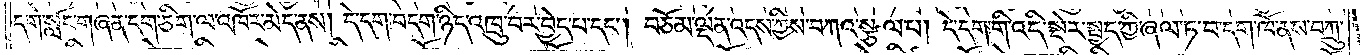དགེ་སློང་གཞན་དག་ཅིག་ལ་འཁོར་མེད་ནས། དེ་དག་བདག་ཉིད་འཁྲུ་བར་བྱེད་པ་དང༌། བཅོམ་ལྡན་འདས་ཀྱིས་བཀའ་སྩལ་པ། དེ་དག་གི་འདི་སྡེར་སྤྱད་ཀྱི་ཞལ་ཏ་བ་དག་ཁོ་ནས་བཀྲུ་
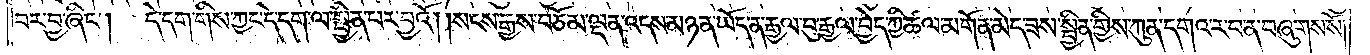བར་བྱ་ཞིང༌། དེ་དག་གིས་ཀྱང་དེ་དག་ལ་སྦྱིན་པར་བྱའོ། །སངས་རྒྱས་བཅོམ་ལྡན་འདས་མཉན་ཡོད་ན་རྒྱལ་བུ་རྒྱལ་བྱེད་ཀྱི་ཚལ་མགོན་མེད་ཟས་སྦྱིན་གྱིས་ཀུན་དགའ་ར་བ་ན་བཞུགས་སོ།
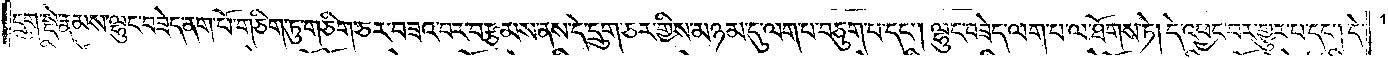དྲུག་སྡེ་རྣམས་ལྷུང་བཟེད་ནག་པོ་གཅིག་ཏུ་གཅིག་ཅར་བཟའ་བར་བརྩམས་ནས་དེ་དྲུག་ཅར་གྱིས་མཉམ་དུ་ལག་པ་བཅུག་པ་དང༌། ལྷུང་བཟེད་ལག་པ་ལ་ཐོགས་ཏེ། དེ་འཕྱང་བར་གྱུར་པ་དང༌། དེ་
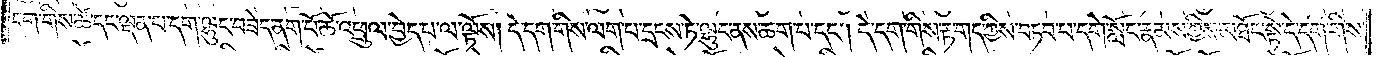དག་གིས་ཚེ་དང་ལྡན་པ་དག་ལྷུང་བཟེད་ནག་པོ་ཆོ་འཕྲུལ་བྱེད་པ་ལ་ལྟོས། དེ་དག་གིས་ལག་པ་དྲངས་ཏེ་ལྷུང་ནས་ཆག་པ་དང༌། དེ་དག་གིས་རྟ་གད་ཀྱིས་བཏབ་པ་དགེ་སློང་རྣམས་ཀྱིས་མཐོང་སྟེ་དེ་དག་གིས་
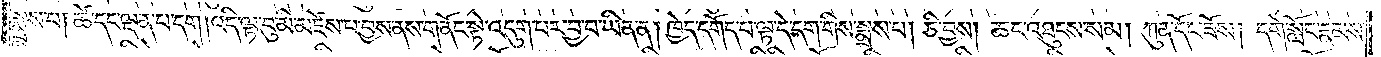སྨྲས་པ། ཚེ་དང་ལྡན་པ་དག །འདི་ལྟ་བུ་མི་མཛེས་པ་བྱས་ནས་གནོང་སྟེ་འདུག་པར་བྱ་བ་ཡིན་ན། ཁྱེད་དགོད་པ་ལྟ་དེ་དག་གིས་སྨྲས་པ། ཅི་བྱས། ཆང་འཐུངས་སམ། ཀུན་དོང་ཟོས། དགེ་སློང་རྣམས་
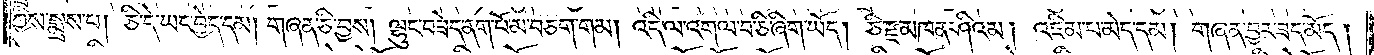ཀྱིས་སྨྲས་པ། ཅི་དེ་ཡང་བྱེད་དམ། གཞན་ཅི་བྱས། ལྷུང་བཟེད་ནག་པོ་མ་བཅག་གམ། འདི་ལ་འགལ་བ་ཅི་ཞིག་ཡོད། ཅི་རྫ་མཁན་ཤིའམ། འཇིམ་པ་མེད་དམ། གཞན་བྱར་ཟད་མོད།
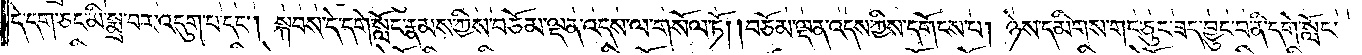དེ་དག་ཅང་མི་སྨྲ་བར་འདུག་པ་དང༌། སྐབས་དེ་དགེ་སློང་རྣམས་ཀྱིས་བཅོམ་ལྡན་འདས་ལ་གསོལ་ཏོ། །བཅོམ་ལྡན་འདས་ཀྱིས་དགོངས་པ། ཉེས་དམིགས་གང་ཅུང་ཟད་བྱུང་བ་ནི་དགེ་སློང་
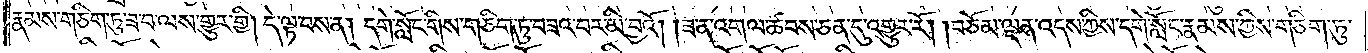རྣམས་གཅིག་ཏུ་ཟ་བ་ལས་གྱུར་གྱི། དེ་ལྟ་བས་ན། དགེ་སློང་གིས་གཅིག་ཏུ་བཟའ་བར་མི་བྱའོ། །ཟ་ན་འགལ་ཚབས་ཅན་དུ་འགྱུར་རོ། །བཅོམ་ལྡན་འདས་ཀྱིས་དགེ་སློང་རྣམས་ཀྱིས་གཅིག་ཏུ་
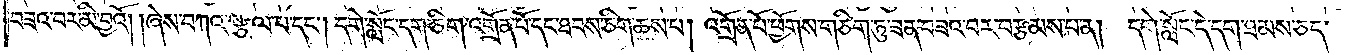བཟའ་བར་མི་བྱའོ། །ཞེས་བཀའ་སྩལ་པ་དང༌། དགེ་སློང་དག་ཅིག་འགྲོན་པོ་དང་ཐབས་ཅིག་ཆས་པ། འགྲོན་པོ་ཕྱོགས་གཅིག་ཏུ་ཟན་བཟའ་བར་བརྩམས་པ་ན། དགེ་སློང་དེ་དག་ཐམས་ཅད་
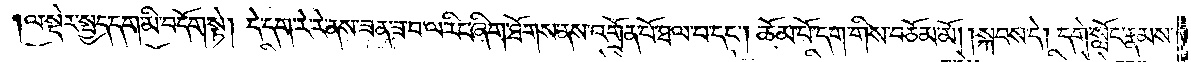ལ་སྡེར་སྤྱད་དག་མི་བདོག་སྟེ། དེ་དག་རེ་རེ་ནས་ཟན་ཟ་བ་ལ་རིང་ཞིག་ཐོགས་ནས་འགྲོན་པོ་ཐལ་བ་དང༌། ཆོམ་པོ་དག་གིས་བཅོམ་མོ། །སྐབས་དེ། དགེ་སློང་རྣམས་
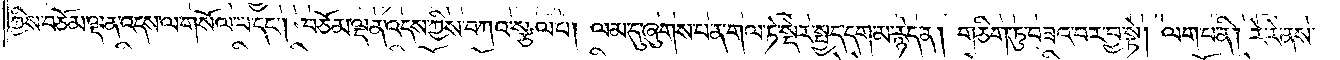ཀྱིས་བཅོམ་ལྡན་འདས་ལ་གསོལ་པ་དང༌། བཅོམ་ལྡན་འདས་ཀྱིས་བཀའ་སྩལ་པ། ལམ་དུ་ཞུགས་པ་ན་གལ་ཏེ་སྡེར་སྤྱད་དག་མ་རྙེད་ན། གཅིག་ཏུ་བཟའ་བར་བྱ་སྟེ། ལག་པ་ནི། རེ་རེ་ནས་
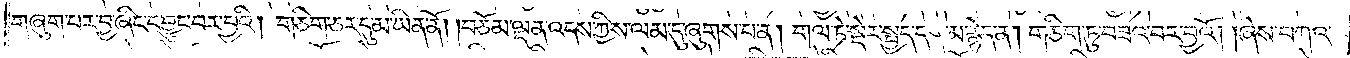གཞུག་པར་བྱ་ཞིང་དབྱུང་བར་བྱའི། གཅིག་ཅར་དུ་མ་ཡིན་ནོ། །བཅོམ་ལྡན་འདས་ཀྱིས་ལམ་དུ་ཞུགས་པ་ན། གལ་ཏེ་སྡེར་སྤྱད་དག་མ་རྙེད་ན། གཅིག་ཏུ་བཟའ་བར་བྱའོ། །ཞེས་བཀའ་
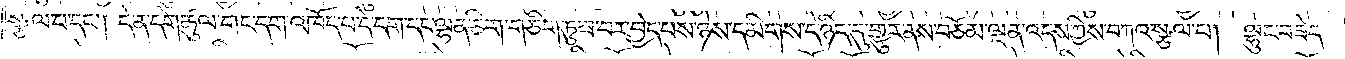སྩལ་པ་དང༌། དེ་ན་དགེ་ཚུལ་གང་དག་འཁོད་པ་དེ་དག་དང་ལྷན་ཅིག་གཅིག་ཏུ་ཟ་བར་བྱེད་པས་ཉེས་དམིགས་དེ་ཉིད་དུ་གྱུར་ནས་བཅོམ་ལྡན་འདས་ཀྱིས་བཀའ་སྩལ་པ། ལྷུང་བཟེད་
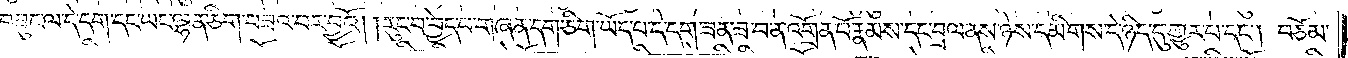བཟུང་ལ་དེ་དག་དང་ཡང་ལྷན་ཅིག་བཟའ་བར་བྱའོ། །རུང་བ་བྱེད་པ་གཞན་དག་ཅིག་ཡོད་པ་དེ་དག་ཟན་ཟ་བ་ན་འགྲོན་པོ་རྣམས་དང་བྲལ་ནས་ཉེས་དམིགས་དེ་ཉིད་དུ་གྱུར་པ་དང༌། བཅོམ་
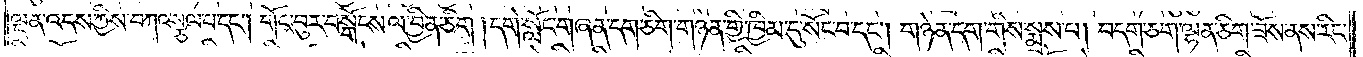ལྡན་འདས་ཀྱིས་བཀའ་སྩལ་པ་དང༌། གོང་བུར་བསྒོངས་ལ་བྱིན་ཅིག །དགེ་སློང་གཞན་དག་ཅིག་གཉེན་གྱི་ཁྱིམ་དུ་སོང་བ་དང༌། གཉེན་དག་གིས་སྨྲས་པ། བདག་ཅག་ལྷན་ཅིག་ཟོས་ནས་རིང་
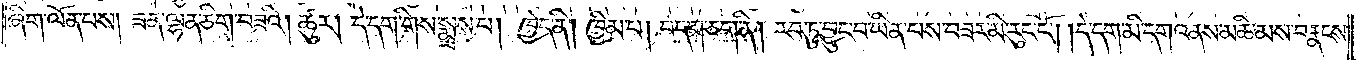ཞིག་ལོན་པས། ཟན་ལྷན་ཅིག་བཟའི། ཚུར། དེ་དག་གིས་སྨྲས་པ། ཁྱེད་ནི། ཁྱིམ་པ། བདག་ཅག་ནི། རབ་ཏུ་བྱུང་བ་ཡིན་པས་བཟར་མི་རུང་ངོ༌། །དེ་དག་མི་དགའ་ནས་མཆི་མས་བརྣངས་
